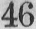46
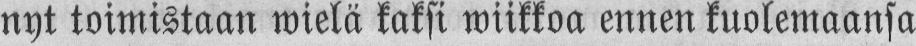nyt toimistaan wielä kaksi wiikkoa ennen kuolemaansa
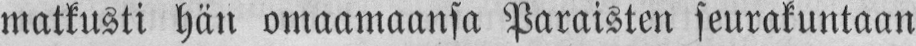matkusti hän omaamaansa Paraisten seurakuntaan
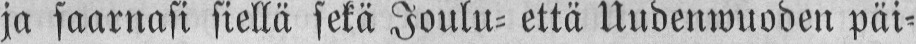ja saarnasi siellä sekä Joulu- että Uudenwuoden päi-
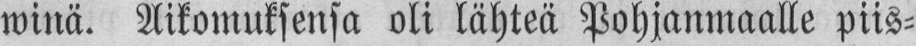winä. Aikomuksensa oli lähteä Pohjanmaalle piis-
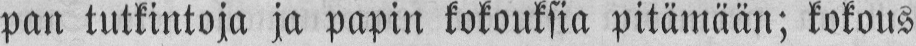pan tutkintoja ja papin kokouksia pitämään; kokous
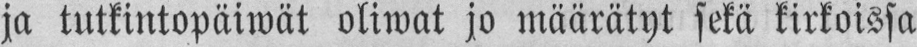ja tutkintopäiwät oliwat jo määrätyt sekä kirkoissa
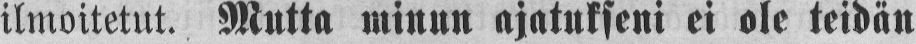ilmoitetut. Mutta minun ajatukseni ei ole teidän
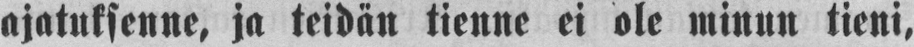ajatuksenne, ja teidän tienne ei ole minun tieni,
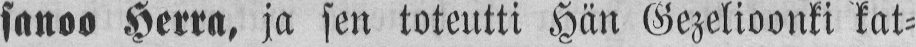sanoo Herra, ja sen toteutti Hän Gezelioonki kat-
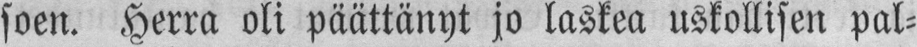soen. Herra oli päättänyt jo laskea uskollisen pal-
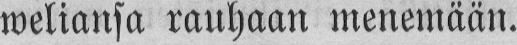weliansa rauhaan menemään.
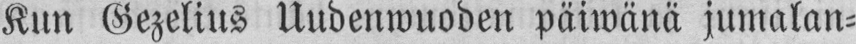Kun Gezelius Uudenwuoden päiwänä jumalan-
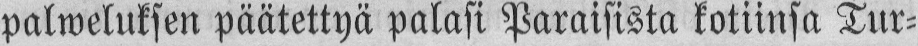palweluksen päätettyä palasi Paraisista kotiinsa Tur-
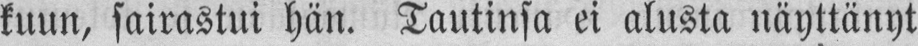kuun, sairastui hän. Tautinsa ei alusta näyttänyt
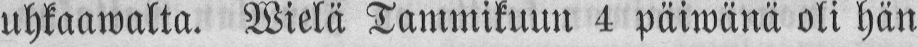uhkaawalta. Wielä Tammikuun 4 päiwänä oli hän
